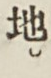地。
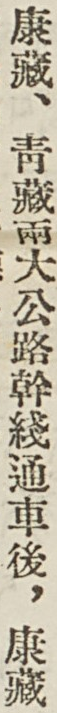康藏、靑藏兩大公路幹綫通車後，康藏
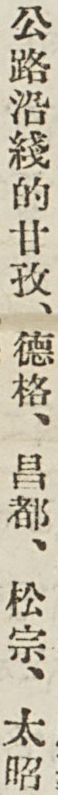公路沿綫的甘孜、德格、昌都、松宗、大昭
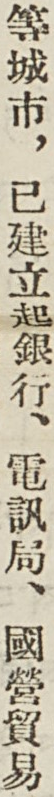等城市，已建立起銀行、電訊局、國營貿易
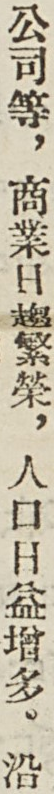公司等，商業日趨繁榮，人口日益增多。沿
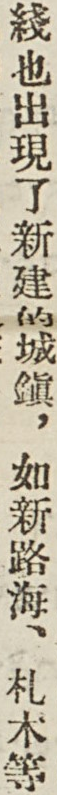綫也出現了新建的城鎮，如新路海、扎木等
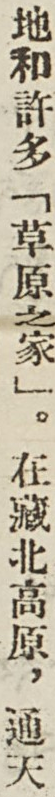地和許多「草原之家」。在藏北高原，通天
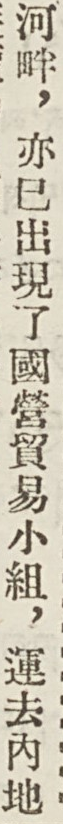河畔，亦已出現了國營貿易小組，運去內地
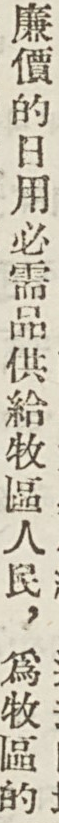廉價的日用必需品供給牧區人民，爲牧區的
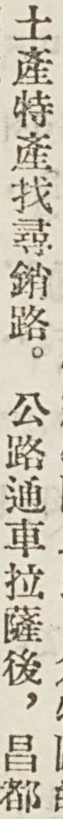土產特產找尋銷路。公路通車拉薩後，昌都
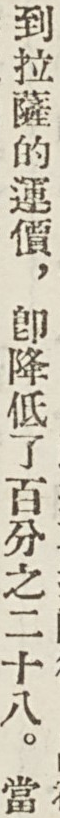到拉薩的運價，卽降低了百分之二十八。當
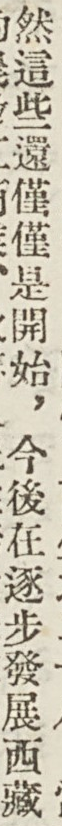然這些還僅僅是開始，今後在逐步發展西藏
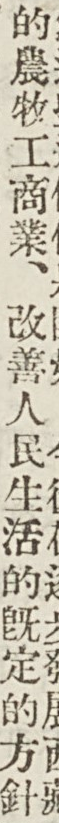的農牧工商業、改善人民生活的旣定的方針
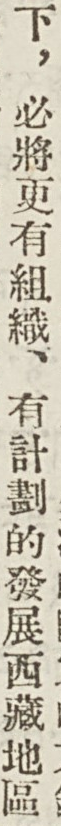下，必將更有組織、有計劃的發展西藏地區
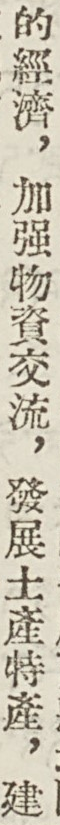的經濟，加強物資交流，發展土產特產，建
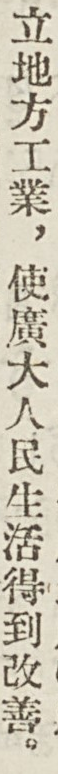立地方工業，使廣大人民生活得到改善。
